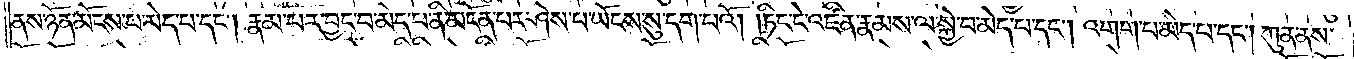ནས་ཉོན་མོངས་པ་མེད་པ་དང༌། རྣམ་པར་བྱང་བ་མེད་པ་ནི་མངོན་པར་ཤེས་པ་ཡོངས་སུ་དག་པའོ། །ཏིང་ངེ་འཛིན་རྣམས་ལ་སྐྱེ་བ་མེད་པ་དང༌། འགག་པ་མེད་པ་དང༌། ཀུན་ནས་
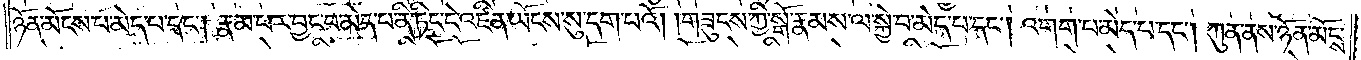ཉོན་མོངས་པ་མེད་པ་དང༌། རྣམ་པར་བྱང་བ་མེད་པ་ནི་ཏིང་ངེ་འཛིན་ཡོངས་སུ་དག་པའོ། །གཟུངས་ཀྱི་སྒོ་རྣམས་ལ་སྐྱེ་བ་མེད་པ་དང༌། འགག་པ་མེད་པ་དང༌། ཀུན་ནས་ཉོན་མོངས་
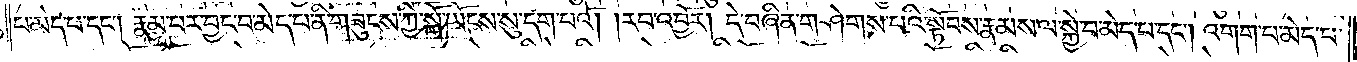པ་མེད་པ་དང༌། རྣམ་པར་བྱང་བ་མེད་པ་ནི་གཟུངས་ཀྱི་སྒོ་ཡོངས་སུ་དག་པའོ། །རབ་འབྱོར། དེ་བཞིན་གཤེགས་པའི་སྟོབས་རྣམས་ལ་སྐྱེ་བ་མེད་པ་དང༌། འགག་པ་མེད་པ་
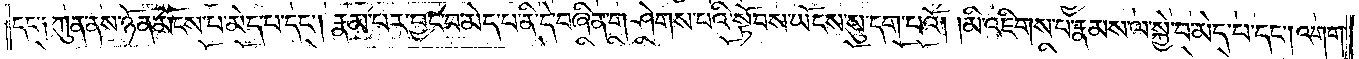དང་༑ ཀུན་ནས་ཉོན་མོངས་པ་མེད་པ་དང༌། རྣམ་པར་བྱང་བ་མེད་པ་ནི་དེ་བཞིན་གཤེགས་པའི་སྟོབས་ཡོངས་སུ་དག་པའོ། །མི་འཇིགས་པ་རྣམས་ལ་སྐྱེ་བ་མེད་པ་དང༌། འགག་
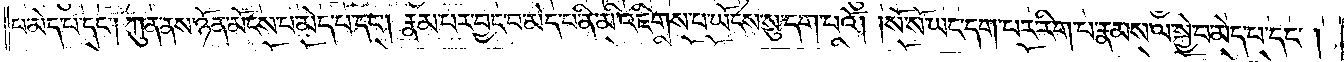པ་མེད་པ་དང༌། ཀུན་ནས་ཉོན་མོངས་པ་མེད་པ་དང༌། རྣམ་པར་བྱང་བ་མེད་པ་ནི་མི་འཇིགས་པ་ཡོངས་སུ་དག་པའོ། །སོ་སོ་ཡང་དག་པར་རིག་པ་རྣམས་ལ་སྐྱེ་བ་མེད་པ་དང༌།
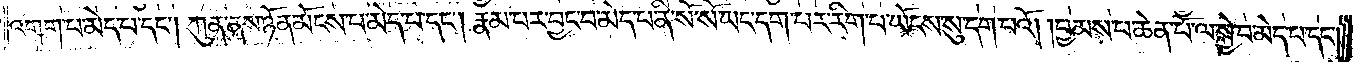འགག་པ་མེད་པ་དང༌། ཀུན་ནས་ཉོན་མོངས་པ་མེད་པ་དང༌། རྣམ་པར་བྱང་བ་མེད་པ་ནི་སོ་སོ་ཡང་དག་པར་རིག་པ་ཡོངས་སུ་དག་པའོ། །བྱམས་པ་ཆེན་པོ་ལ་སྐྱེ་བ་མེད་པ་དང༌།
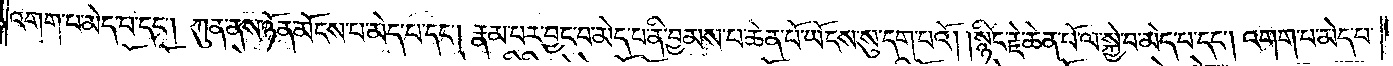འགག་པ་མེད་པ་དང༌། ཀུན་ནས་ཉོན་མོངས་པ་མེད་པ་དང༌། རྣམ་པར་བྱང་བ་མེད་པ་ནི་བྱམས་པ་ཆེན་པོ་ཡོངས་སུ་དག་པའོ། །སྙིང་རྗེ་ཆེན་པོ་ལ་སྐྱེ་བ་མེད་པ་དང༌། འགག་པ་མེད་པ་
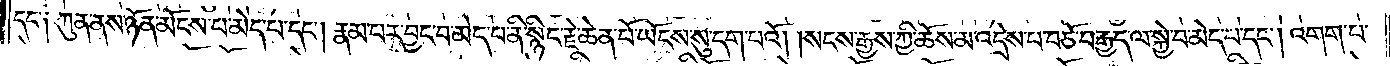དང་༑ ཀུན་ནས་ཉོན་མོངས་པ་མེད་པ་དང༌། རྣམ་པར་བྱང་བ་མེད་པ་ནི་སྙིང་རྗེ་ཆེན་པོ་ཡོངས་སུ་དག་པའོ། །སངས་རྒྱས་ཀྱི་ཆོས་མ་འདྲེས་པ་བཅོ་བརྒྱད་ལ་སྐྱེ་བ་མེད་པ་དང༌། འགག་པ་
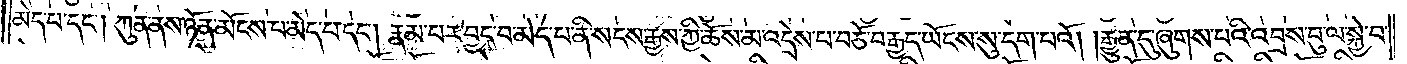མེད་པ་དང༌། ཀུན་ནས་ཉོན་མོངས་པ་མེད་པ་དང༌། རྣམ་པར་བྱང་བ་མེད་པ་ནི་སངས་རྒྱས་ཀྱི་ཆོས་མ་འདྲེས་པ་བཅོ་བརྒྱད་ཡོངས་སུ་དག་པའོ། །རྒྱུན་དུ་ཞུགས་པའི་འབྲས་བུ་ལ་སྐྱེ་བ་
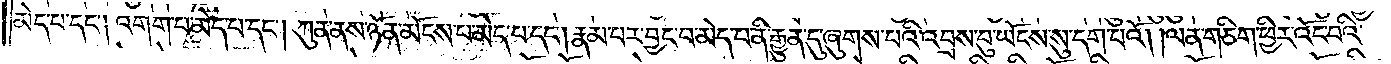མེད་པ་དང༌། འགག་པ་མེད་པ་དང༌། ཀུན་ནས་ཉོན་མོངས་པ་མེད་པ་དང༌། རྣམ་པར་བྱང་བ་མེད་པ་ནི་རྒྱུན་དུ་ཞུགས་པའི་འབྲས་བུ་ཡོངས་སུ་དག་པའོ། །ལན་གཅིག་ཕྱིར་འོང་བའི་
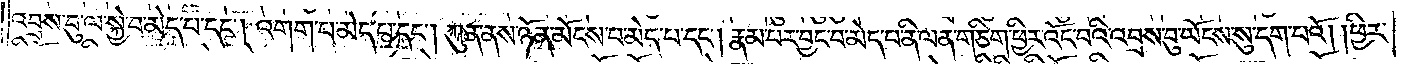འབྲས་བུ་ལ་སྐྱེ་བ་མེད་པ་དང༌། འགག་པ་མེད་པ་དང༌། ཀུན་ནས་ཉོན་མོངས་པ་མེད་པ་དང༌། རྣམ་པར་བྱང་བ་མེད་པ་ནི་ལན་གཅིག་ཕྱིར་འོང་བའི་འབྲས་བུ་ཡོངས་སུ་དག་པའོ། །ཕྱིར་
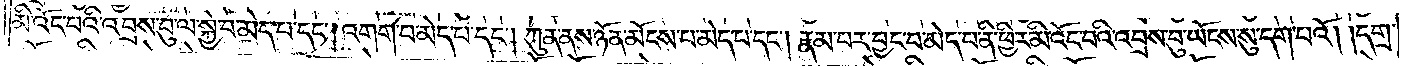མི་འོང་བའི་འབྲས་བུ་ལ་སྐྱེ་བ་མེད་པ་དང༌། འགག་པ་མེད་པ་དང༌། ཀུན་ནས་ཉོན་མོངས་པ་མེད་པ་དང༌། རྣམ་པར་བྱང་བ་མེད་པ་ནི་ཕྱིར་མི་འོང་བའི་འབྲས་བུ་ཡོངས་སུ་དག་པའོ། །དགྲ་
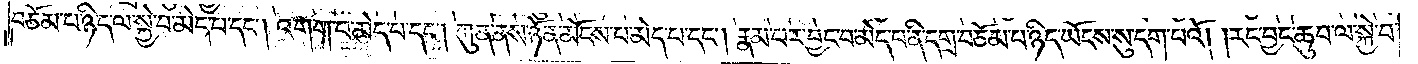བཅོམ་པ་ཉིད་ལ་སྐྱེ་བ་མེད་པ་དང༌། འགག་པ་མེད་པ་དང༌། ཀུན་ནས་ཉོན་མོངས་པ་མེད་པ་དང༌། རྣམ་པར་བྱང་བ་མེད་པ་ནི་དགྲ་བཅོམ་པ་ཉིད་ཡོངས་སུ་དག་པའོ། །རང་བྱང་ཆུབ་ལ་སྐྱེ་བ་
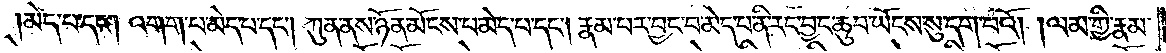མེད་པ་དང༌། འགག་པ་མེད་པ་དང༌། ཀུན་ནས་ཉོན་མོངས་པ་མེད་པ་དང༌། རྣམ་པར་བྱང་བ་མེད་པ་ནི་རང་བྱང་ཆུབ་ཡོངས་སུ་དག་པའོ། །ལམ་གྱི་རྣམ་
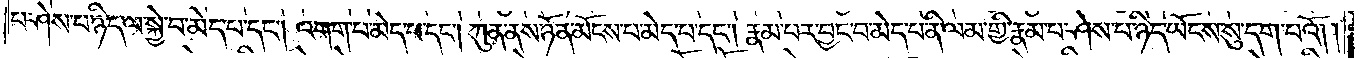པ་ཤེས་པ་ཉིད་ལ་སྐྱེ་བ་མེད་པ་དང༌། འགག་པ་མེད་པ་དང༌། ཀུན་ནས་ཉོན་མོངས་པ་མེད་པ་དང༌། རྣམ་པར་བྱང་བ་མེད་པ་ནི་ལམ་གྱི་རྣམ་པ་ཤེས་པ་ཉིད་ཡོངས་སུ་དག་པའོ། །
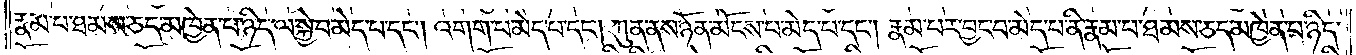རྣམ་པ་ཐམས་ཅད་མཁྱེན་པ་ཉིད་ལ་སྐྱེ་བ་མེད་པ་དང༌། འགག་པ་མེད་པ་དང༌། ཀུན་ནས་ཉོན་མོངས་པ་མེད་པ་དང༌། རྣམ་པར་བྱང་བ་མེད་པ་ནི་རྣམ་པ་ཐམས་ཅད་མཁྱེན་པ་ཉིད་
